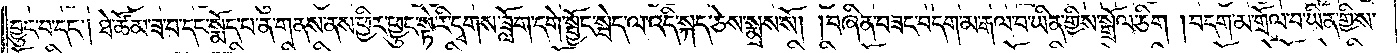བྱུང་བ་དང༌། ཐེ་ཚོམ་ཟ་བ་དང་སྨོད་པ་ན་གནས་ནས་ཕྱིར་ཕྱུང་སྟེ་རི་དྭགས་ཟློག་དགེ་སྦྱོང་སྦེད་ལ་འདི་སྐད་ཅེས་སྨྲས་སོ། །བཞིན་བཟང་བདག་མ་རྒལ་བ་ཡིན་གྱིས་སྒྲོལ་ཅིག །བདག་མ་གྲོལ་བ་ཡིན་གྱིས་
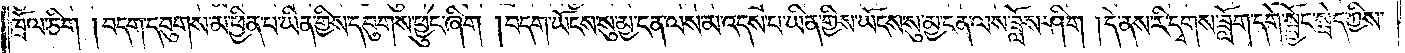ཁྲོལ་ཅིག །བདག་དབུགས་མ་ཕྱིན་པ་ཡིན་གྱིས་དབུགས་ཕྱུང་ཞིག །བདག་ཡོངས་སུ་མྱ་ངན་ལས་མ་འདས་པ་ཡིན་གྱིས་ཡོངས་སུ་མྱ་ངན་ལས་ཟློས་ཤིག །དེ་ནས་རི་དྭགས་ཟློག་དགེ་སྦྱོང་སྦེད་ཀྱིས་
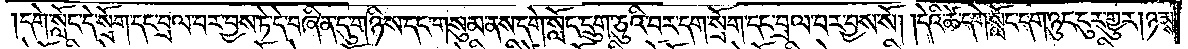དགེ་སློང་དེ་སྲོག་དང་བྲལ་བར་བྱས་ཏེ་དེ་བཞིན་དུ་གཉིས་དང་གསུམ་ནས་དགེ་སློང་དྲུག་ཅུའི་བར་དག་སྲོག་དང་བྲལ་བར་བྱས་སོ། །དེའི་ཚེ་དགེ་སློང་དག་ཉུང་ངུར་གྱུར། ཉམས་
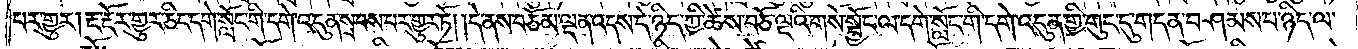པར་གྱུར། རྔ་རྡོར་གྱུར་ཅིང་དགེ་སློང་གི་དགེ་འདུན་སྲབས་པར་གྱུར་ཏོ། །དེ་ནས་བཅོམ་ལྡན་འདས་དེ་ཉིད་ཀྱི་ཚེས་བཅོ་ལྔའི་གསོ་སྦྱོང་ལ་དགེ་སློང་གི་དགེ་འདུན་གྱི་གུང་དུ་གདན་བཤམས་པ་ཉིད་ལ་
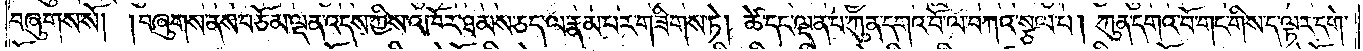བཞུགས་སོ། །བཞུགས་ནས་བཅོམ་ལྡན་འདས་ཀྱིས་འཁོར་ཐམས་ཅད་ལ་རྣམ་པར་གཟིགས་ཏེ། ཚེ་དང་ལྡན་པ་ཀུན་དགའ་བོ་ལ་བཀའ་སྩལ་པ། ཀུན་དགའ་བོ་གང་གིས་ད་ལྟར་དགེ་
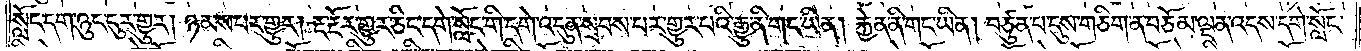སློང་དག་ཉུང་ངུར་གྱུར། ཉམས་པར་གྱུར། རྔ་རྡོར་གྱུར་ཅིང་དགེ་སློང་གི་དགེ་འདུན་སྲབས་པར་གྱུར་པའི་རྒྱུ་ནི་གང་ཡིན། རྐྱེན་ནི་གང་ཡིན། བཙུན་པ་དུས་གཅིག་ན་བཅོམ་ལྡན་འདས་དགེ་སློང་
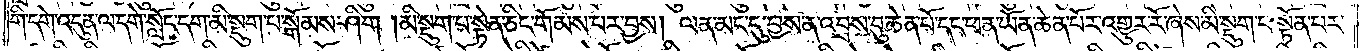གི་དགེ་འདུན་ལ་དགེ་སློང་དག་མི་སྡུག་པ་སྒོམས་ཤིག །མི་སྡུག་པ་སྟེན་ཅིང་གོམས་པར་བྱས། ལན་མང་དུ་བྱས་ན་འབྲས་བུ་ཆེན་པོ་དང་ཕན་ཡོན་ཆེན་པོར་འགྱུར་རོ་ཞེས་མི་སྡུག་པ་སྟོན་པར་
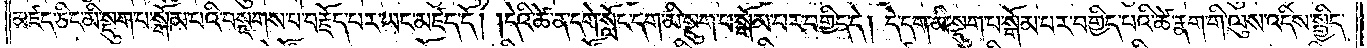མཛད་ཅིང་མི་སྡུག་པ་སྒོམ་པའི་བསྔགས་པ་བརྗོད་པར་ཡང་མཛད་དོ། །དེའི་ཚེ་ན་དགེ་སློང་དག་མི་སྡུག་པ་སྒོམ་པར་བགྱིད་དེ། དེ་དག་མི་སྡུག་པ་སྒོམ་པར་བགྱིད་པའི་ཚེ་རྣག་གི་ལུས་འདིས་སྒྱིད་
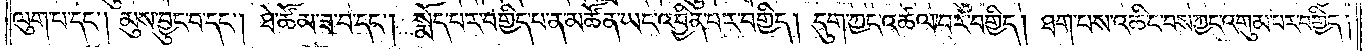ལུག་པ་དང༌། མུས་བྱུང་བ་དང༌། ཐེ་ཚོམ་ཟ་བ་དང༌། སྨོད་པར་བགྱིད་པ་ན་མཚོན་ཡང་འབྱིན་པར་བགྱིད། དུག་ཀྱང་འཚལ་བར་བགྱིད། ཐག་པས་འཆིང་བས་ཀྱང་འགུམ་པར་བགྱིད།
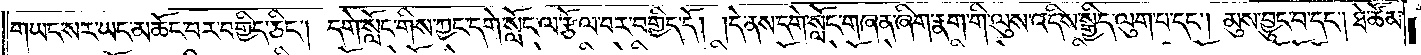གཡང་སར་ཡང་མཆོང་བར་བགྱིད་ཅིང༌། དགེ་སློང་གིས་ཀྱང་དགེ་སློང་ལ་རྩོལ་བར་བགྱིད་དོ། །དེ་ནས་དགེ་སློང་གཞན་ཞིག་རྣག་གི་ལུས་འདིས་སྒྱིད་ལུག་པ་དང༌། མུས་བྱུང་བ་དང༌། ཐེ་ཚོམ་
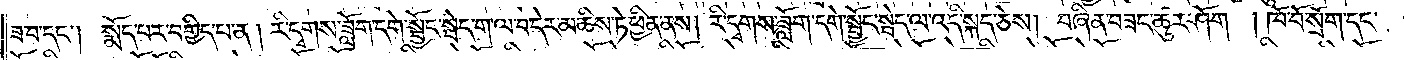ཟ་བ་དང༌། སྨོད་པར་བགྱིད་པ་ན། རི་དྭགས་ཟློག་དགེ་སྦྱོང་སྦེད་ག་ལ་བ་དེར་མཆིས་ཏེ་ཕྱིན་ནས། རི་དྭགས་ཟློག་དགེ་སྦྱོང་སྦེད་ལ་འདི་སྐད་ཅེས། བཞིན་བཟང་ཚུར་ཤོག །ཁོ་བོ་སྲོག་དང་
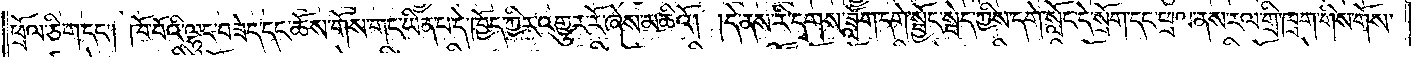ཕྲོལ་ཅིག་དང༌། ཁོ་བོའི་ལྷུང་བཟེད་དང་ཆོས་གོས་གང་ཡིན་པ་དེ་ཁྱོད་ཀྱིར་འགྱུར་རོ་ཞེས་མཆིའོ། །དེ་ནས་རི་དྭགས་ཟློག་དགེ་སྦྱོང་སྦེད་ཀྱིས་དགེ་སློང་དེ་སྲོག་དང་ཕྲལ་ནས་རལ་གྲི་ཁྲག་གིས་གོས་
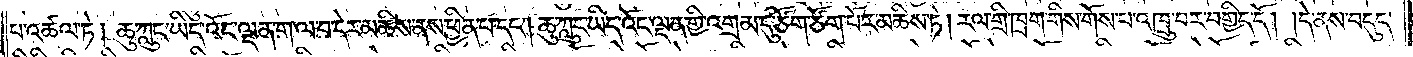པ་འཚལ་ཏེ། ཆུ་ཀླུང་ཡིད་འོང་ལྡན་ག་ལ་བ་དེར་མཆིས་ནས་ཕྱིན་པ་དང༌། ཆུ་ཀླུང་ཡིད་འོང་ལྡན་གྱི་འགྲམ་དུ་ཙོག་ཙོག་པོར་མཆིས་ཏེ། རལ་གྲི་ཁྲག་གིས་གོས་པ་འཁྲུ་བར་བགྱིད་དོ། །དེ་ནས་བདུད་
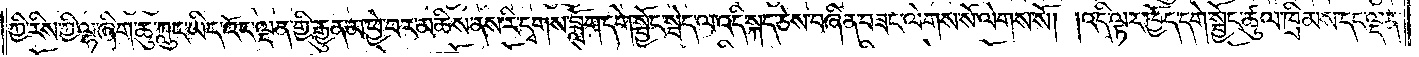ཀྱི་རིས་ཀྱི་ལྷ་ཞིག་ཆུ་ཀླུང་ཡིད་འོང་ལྡན་གྱི་རྒྱུན་མ་ཕྱེ་བར་མཆིས་ནས་རི་དྭགས་ཟློག་དགེ་སྦྱོང་སྦེད་ལ་འདི་སྐད་ཅེས་བཞིན་བཟང་ལེགས་སོ་ལེགས་སོ། །འདི་ལྟར་ཁྱོད་དགེ་སྦྱོང་ཚུལ་ཁྲིམས་དང་ལྡན་
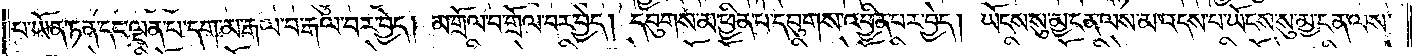པ་ཡོན་ཏན་དང་ལྡན་པ་དག་མ་རྒལ་བ་རྒལ་བར་བྱེད། མ་གྲོལ་བ་གྲོལ་བར་བྱེད། དབུགས་མ་ཕྱིན་པ་དབུགས་འབྱིན་པར་བྱེད། ཡོངས་སུ་མྱ་ངན་ལས་མ་འདས་པ་ཡོངས་སུ་མྱ་ངན་ལས་
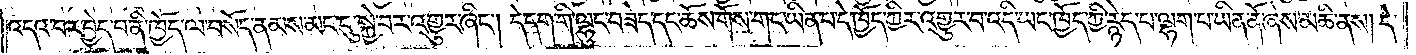འདའ་བར་བྱེད་བ་ནི་ཁྱོད་ལ་བསོད་ནམས་མང་དུ་སྐྱེ་བར་འགྱུར་ཞིང༌། དེ་དག་གི་ལྷུང་བཟེད་དང་ཆོས་གོས་གང་ཡིན་པ་དེ་ཁྱོད་ཀྱིར་འགྱུར་བ་འདི་ཡང་ཁྱོད་ཀྱི་རྙེད་པ་ལྷག་པ་ཡིན་ནོ་ཞེས་མཆི་ནས། དེ་
